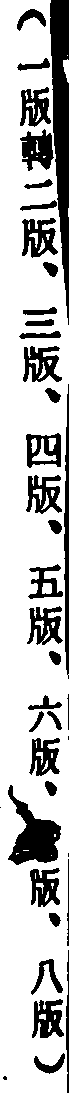（一版轉二版、三版、四版、五版、六版、七版、八版）
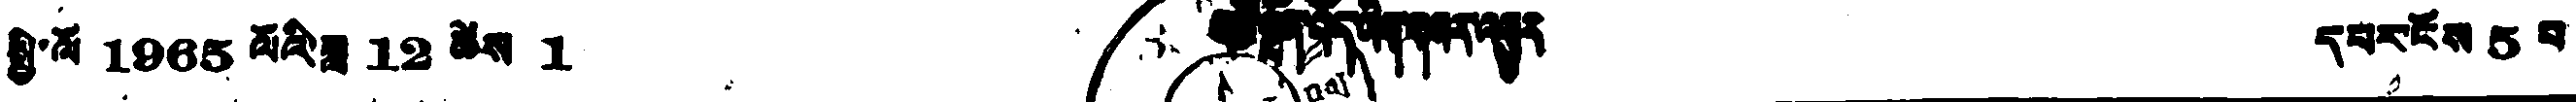སྤྱི་ལོ 1965 ལོའི་ཟླ་ 12 ཚེས 1 མཚོ་སྔོན་བོད་ཡིག་གསར་འགྱུར དཔར་ངོས 5 པ
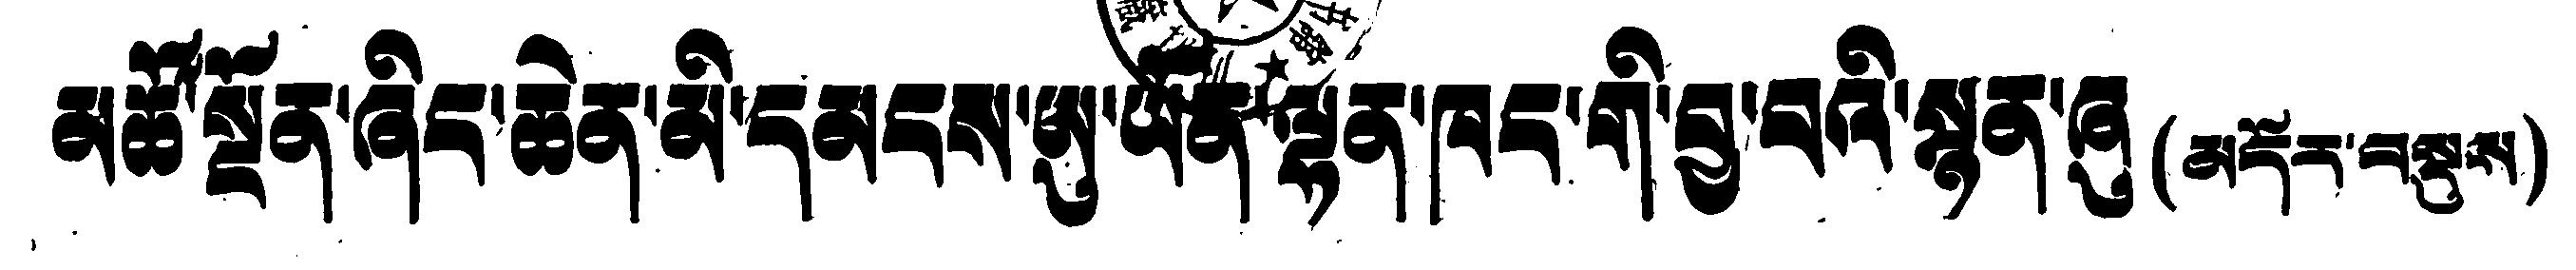མཚོ་སྔོན་ཞིང་ཆེན་མི་དམངས་ཨུ་ཡོན་ལྷན་ཁང་གི་བྱ་བའི་སྙན་ཞུ(མདོར་བསྡུས)
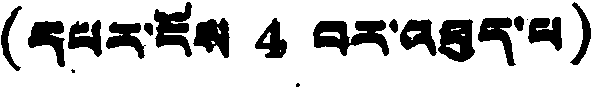(དཔར་ངོས 4 བར་འཐུད་ལ)
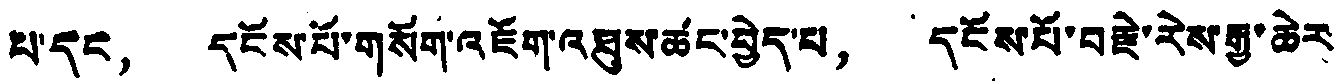པ་དང， དངོས་པོ་གསོག་འཇོག་འཐུས་ཚང་བྱེད་པ， དངོས་པོ་བརྗེ་རེས་རྒྱ་ཆེར
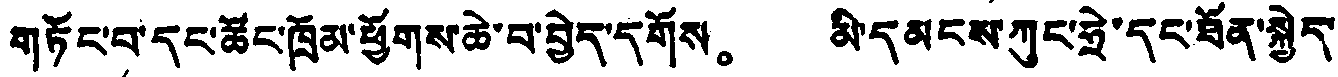གཏོང་བ་དང་ཚོང་ཁྲོམ་ཕྱོགས་ཆེ་བ་བྱེད་དགོས。 མི་དམངས་ཀུང་ཧྲེ་དང་ཐོན་སྐྱེད་
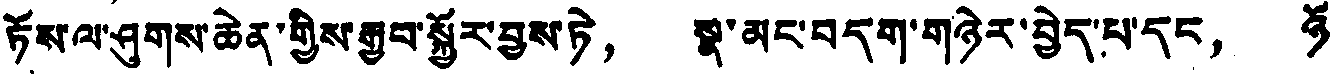ཏོས་ལ་ཤུགས་ཆེན་གྱིས་རྒྱབ་སྐྱོར་བྱས་ཏེ， སྣ་མང་བདག་གཉེར་བྱེད་པ་དང， ཉོ་
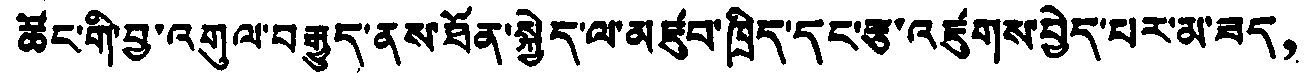ཚོང་གི་བྱ་འགུལ་བརྒྱུད་ནས་ཐོན་སྐྱེད་ལ་མཛུབ་ཁྲིད་དང་རྩ་འཛུགས་བྱེད་པར་མ་ཟད，
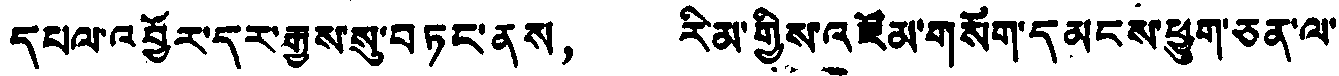དཔལ་འབྱོར་དར་རྒྱས་སུ་བཏང་ནས， རིམ་གྱིས་འཛོམ་གསོག་དམངས་ཕྱུག་ཅན་ལ་
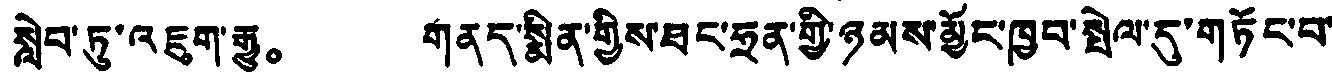སླེབ་ཏུ་འཇུག་རྒྱུ。 གནད་སྨིན་གྱིས་ཐང་ཧྲན་གྱི་ཉམས་མྱོང་ཁྱབ་སྤེལ་དུ་གཏོང་བ་
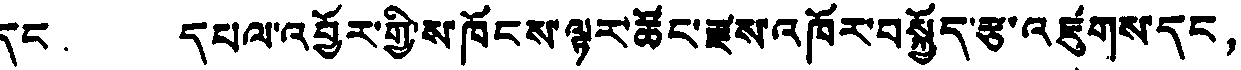དང， དཔལ་འབྱོར་གྱི་ས་ཁོངས་ལྟར་ཚོང་རྫས་འཁོར་བསྐྱོད་རྩ་འཛུགས་དང，
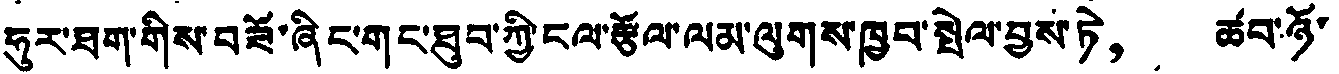ཧུར་ཐག་གིས་བཟོ་ཞིང་གང་ཐུབ་ཀྱི་ངལ་རྩོལ་ལམ་ལུགས་ཁྱབ་སྤེལ་བྱས་ཏེ， ཚབ་ཉོ་
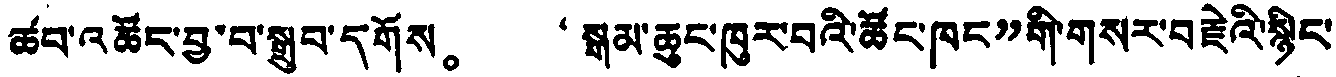ཚབ་འཚོང་བྱ་བ་སྒྲུབ་དགོས。 “སྒམ་ཆུང་ཁུར་བའི་ཚོང་ཁང”གི་གསར་བརྗེའི་སྙིང་
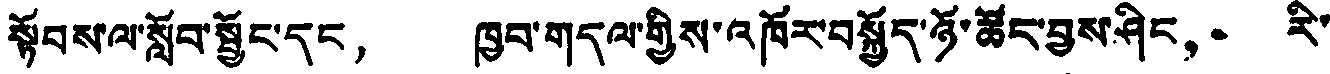སྟོབས་ལ་སློབ་སྦྱོང་དང， ཁྱབ་གདལ་གྱིས་འཁོར་བསྐྱོད་ཉོ་ཚོང་བྱས་ཤིང， རི་
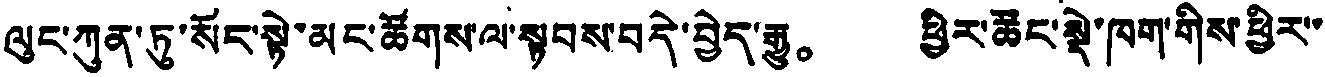ལུང་ཀུན་ཏུ་སོང་སྟེ་མང་ཚོགས་ལ་སྟབས་བདེ་བྱེད་རྒྱུ。 ཕྱིར་ཚོང་སྡེ་ཁག་གིས་ཕྱིར་་
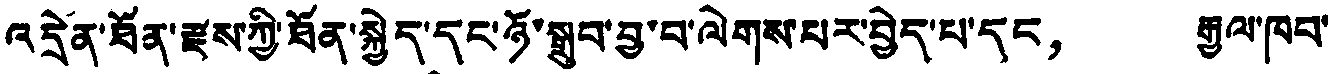འདྲེན་ཐོན་རྫས་ཀྱི་ཐོན་སྐྱེད་དང་ཉོ་སྒྲུབ་བྱ་བ་ལེགས་པར་བྱེད་པ་དང， རྒྱལ་ཁབ་
